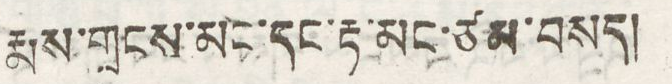རྨས་གྲངས་མང་དང་རྟ་མང་ཙམ་བསད།
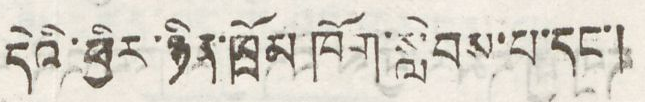དེའི་ཕྱིར་ཉིན་ཁྲོམ་ཁོག་སླེབས་པ་དང་།
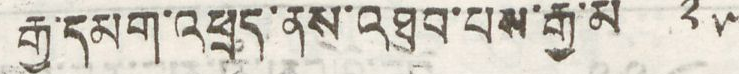རྒྱ་དམག་འཕྲད་ནས་འཐུབ་པས་རྒྱ་མི ༢༥
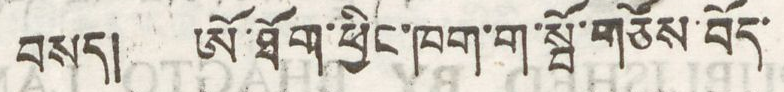བསད། ཨོ་ཐོག་ཕྱིང་ཁག་ག་སྦོ་གཅོས་བོད་
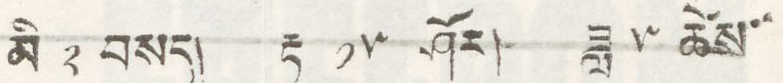མི་ ༢ བསད། རྟ ༡༥ ཤོར། ཟླ ༥ ཚེས་་
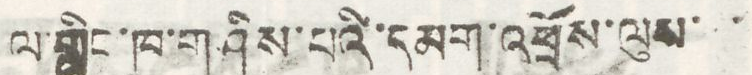ལ་གླིང་ཁ་གཤིས་པའི་དམག་འཕྲོས་ལུས་་་
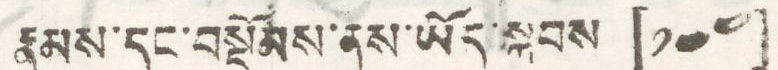རྣམས་དང་བསྡོམས་ནས་ཡོས་སྐབས་ [༡༤༤]
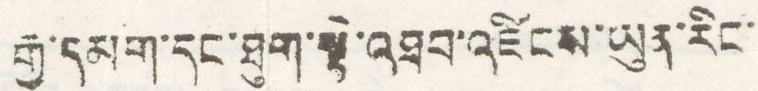རྒྱ་དམག་དང་ཐུག་སྟེ་འཐབ་འཛིངས་ཡུན་རིང་
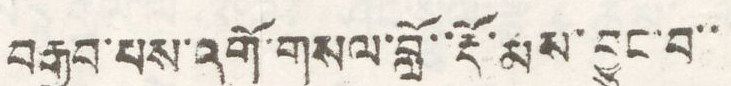བརྒྱབ་པས་འགོ་གསལ་བློ་་རྡོ་རྨས་བྱུང་བ་་
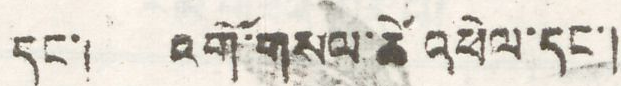དང་། འགོ་གསལ་ཚེ འཕེལ་དང་།
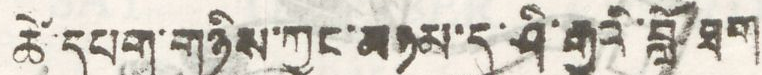ཚེ་དཔག་གཉིས་ཀྱང་མཉམ་དུ་ཤི་རྒྱུའི་བློ་ཐག
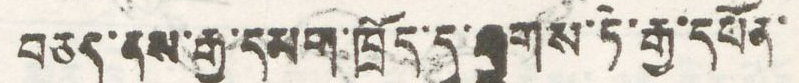བཅད་ནས་རྒྱ་དམག་ཁྲོད་དུ་རྒྱུགས་ཏེ་རྒྱ་དཔོན་
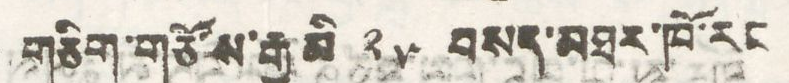གཅིག་གཙོས་རྒྱ མི ༢༥ བསད་མཐར་ཁོ་རང
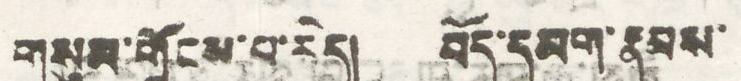གསུམ་གྲོངས་པ་རེད། བོད་དམག་རྣམས་
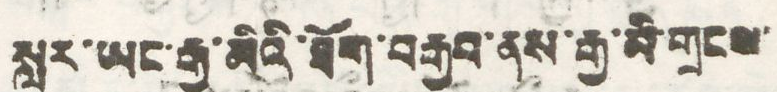སླར་ཡང་རྒྱ་མིའི་ཐོག་བརྒྱབ་ནས་རྒྱ་མི་གྲངས་
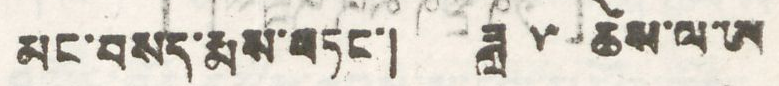ནང་བསད་རྨས་བཏང་། ཟླ ༥ ཚེས་ལ་ཨ
